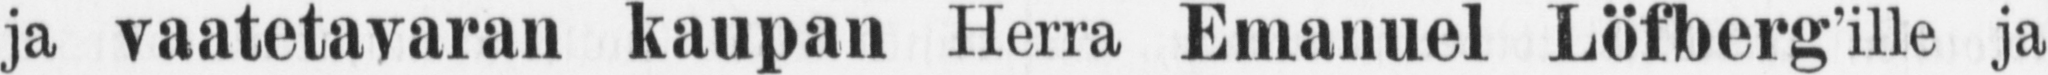ja vaatetavaran kaupan Herra Emanuel Löfberg'ille ja
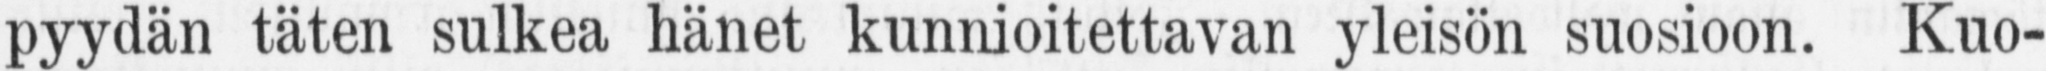pyydän täten sulkea hänet kunnioitettavan yleisön suosioon. Kuo-
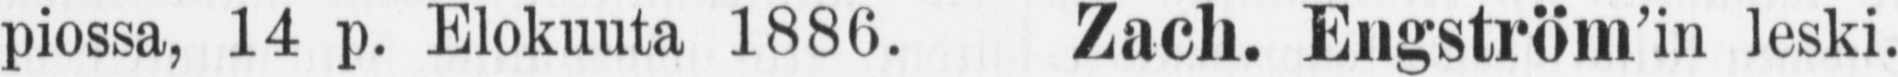piossa, 14 p. Elokuuta 1886. Zach. Engström'in leski.
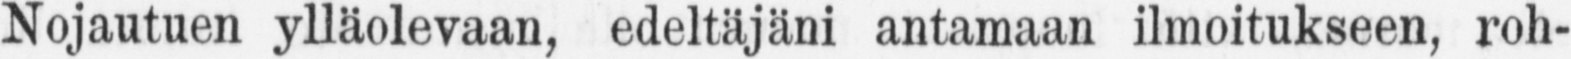Nojautuen ylläolevaan, edeltäjäni antamaan ilmoitukseen, roh-
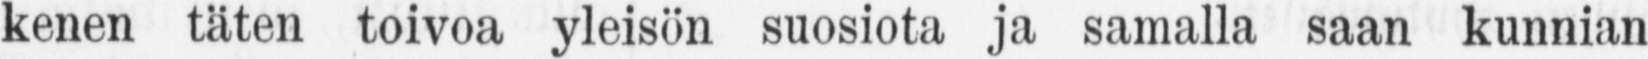kenen täten toivoa yleisön suosiota ja samalla saan kunnian
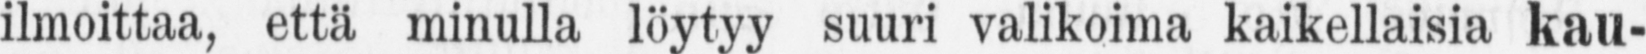ilmoittaa, että minulla suuri valikoima kaikellaisia kau-
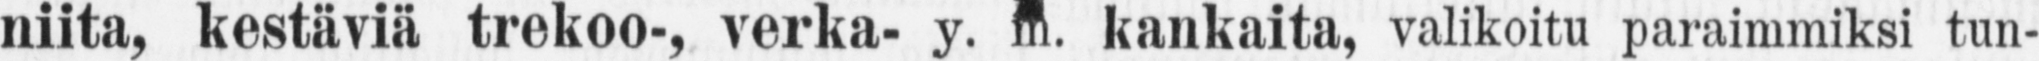niita, Kestäviä trekoo-, verka- y. m. kankaita, valikoitu paraimmiksi tun-
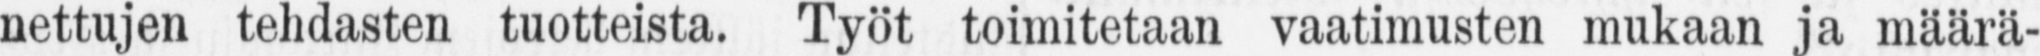nettujen tehdasten tuotteista, Työt toimitetaan vaatimusten mukaan ja määrä-
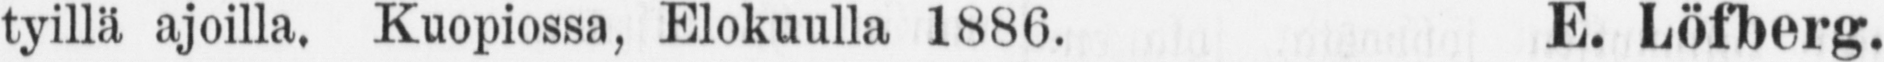tyillä ajoilla. Kuopiossa, Elokuulla 1886. E. Löfberg.
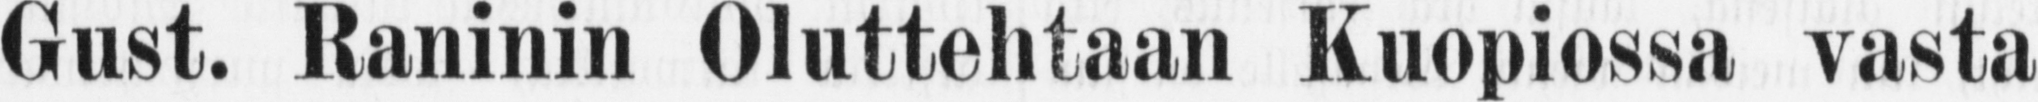Gust. Raninin Oluttehtaan Kuopiossa vasta
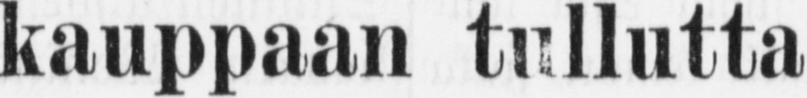kauppaan tullutta
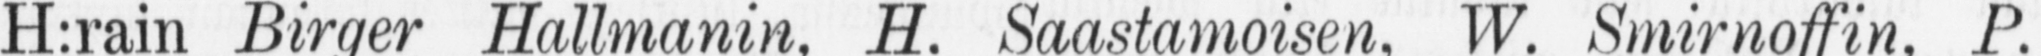H:rain Birger Hallmanin, W. Smirnoffin P.
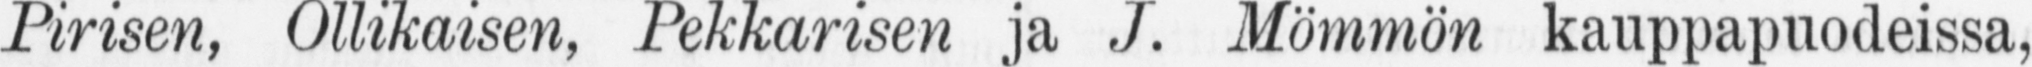Pirisen, Ollikaisen, Pekkarisen ja J. M ömm ön kauppapuodeissa,
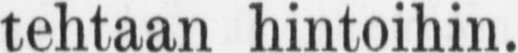tehtaan hintoihin.
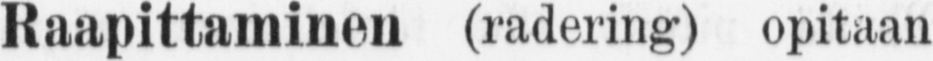Raapittaminen (radering) opitaan
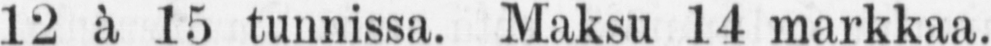12 à 15 tunnissa. Maksu 14 markkaa.
